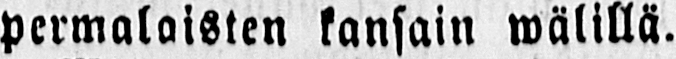permalaisten kansain wälillä.
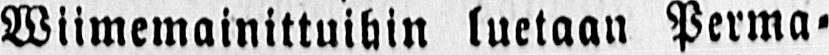Wiimemainittuihin luetaan Perma-
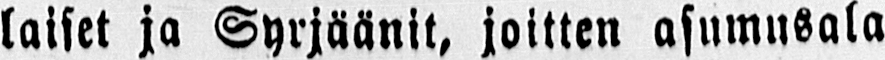laiset ja Syrjäänit, joitten asumusala
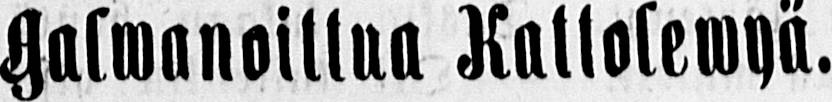Galwanoittua Kattolewyä.
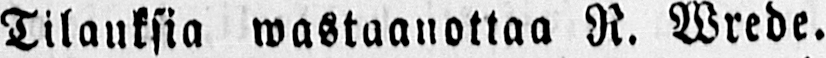Tilauksia wastaanottaa R. Wrede.
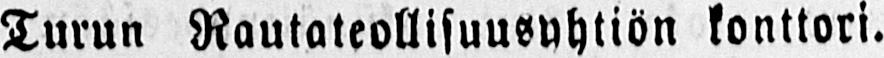Turun Rautateollisuusyhtiön konttori.
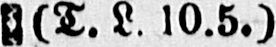(T. L. 10.5.)
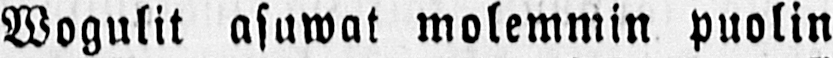Wogulit asuwat molemmin puolin
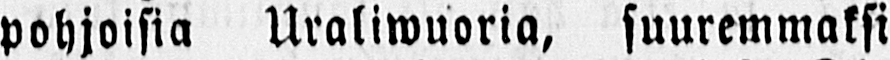pohjoisia Uraliwuoria, suuremmaksi
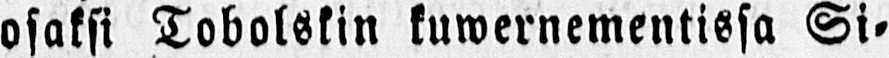osaksi Tobolskin kuwernementissa Si-
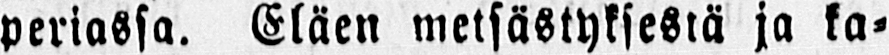periassa. Eläen metsästyksestä ja ka-
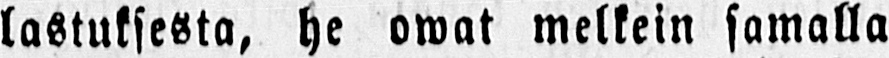lastuksesta, he owat melkein samalla
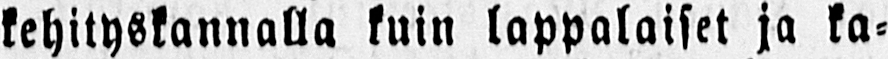kehityskannalla kuin lappalaiset ja ka-
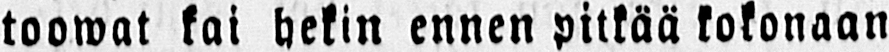toowat kai hekin ennen pitkää kokonaan
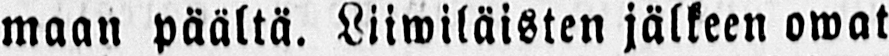maan päältä. Liiwiläisten jälkeen omat
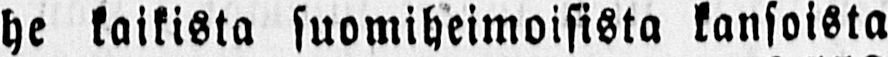he kaikista suomiheimoisista kansoista
